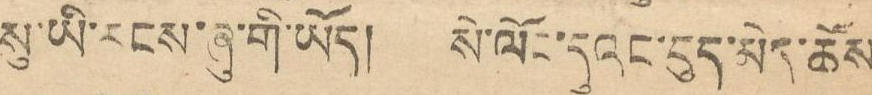སུ་ཡི་རངས་ཞི་གི་ཡོད། སེ་ལོང་དུའང་ངུད་མེད་ཆོས་
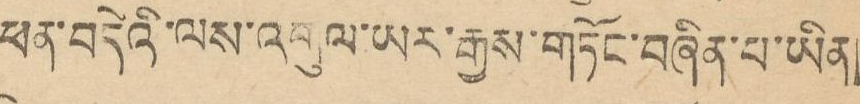ཕན་བདེའི་ལས་འགུལ་ཡར་རྒྱས་གཏོང་བཞིན་པ་ཡིན།
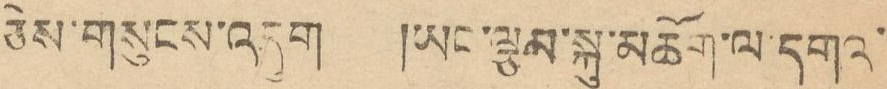ཅེས་གསུངས་འདུག །ཡང་ལྕམ་སྐུ་མཆོག་ལ་དགའ་
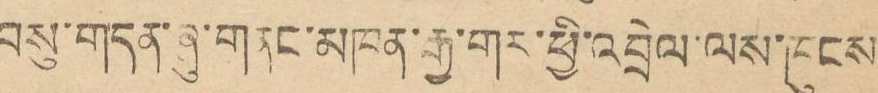བསུ་གདན་ཞུ་གནང་མཁན་རྒྱ་གར་ཕྱི་འབྲེལ་ལས་ཁུངས
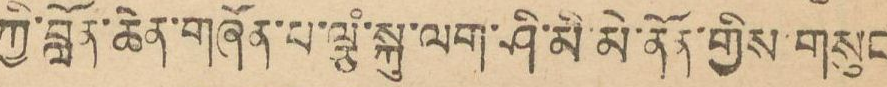ཀྱི་བློན་ཆེན་གཞོན་པ་ལྕཾ་སྐུ་ལག་ཤི་མི་མེ་ནོན་གྱིས་གསུང
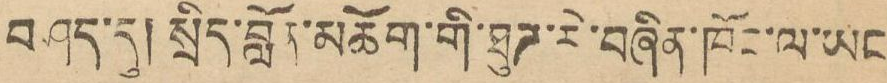བཤད་དུ། སྲིད་བློན་མཆོག་གི་ཐུཊ་ཏེ་བཞིན་ཁོང་ལ་ཡང
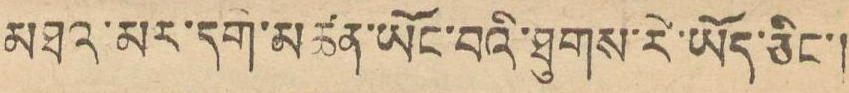མཐའ་མར་དགེ་མཚན་ཡོང་བའི་ཐུགས་རེ་ཡོད་ཅིང་།
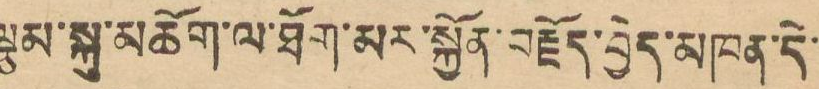སྕམ་སྐུ་མཆོག་ལ་ཐོག་མར་སྐྱོན་བརྗོད་བྱེད་མཁན་དེ་
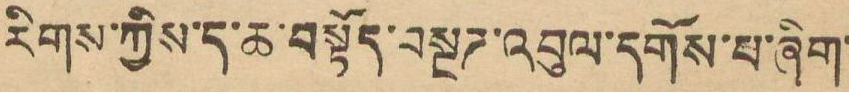རིགས་ཀྱིས་ད་ཆ་བསྟོད་བསྔཊ་འབུལ་དགོས་པ་ཞིག་
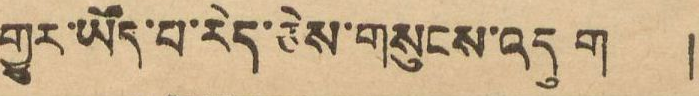གྱུར་ཡོད་པ་རེད་ཅེས་གསུངས་འདུག །
